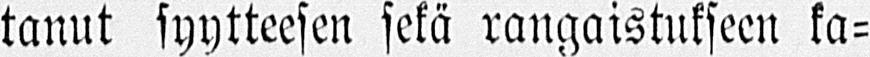tanut syytteesen sekä rangaistukseen ka-
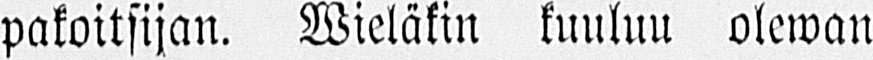pakoitsijan. Weläkin kuuluu olewan
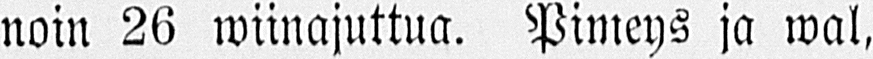noin 26 wiinajuttua. Pimeys ja wal,
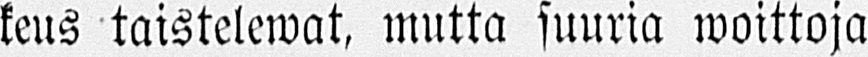keus taistelewat, mutta suuria woittoja
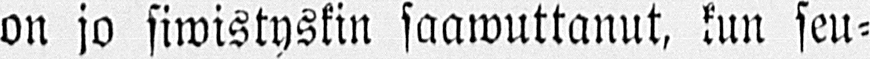on jo siwistyskin saawuttanut, kun seu-
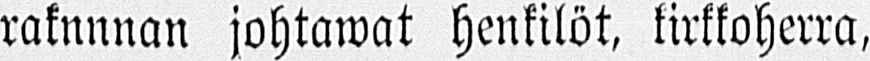rakunnan johtawat henkilöt, kirkkoherra,
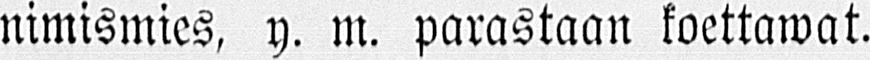nimismies, y. m. parastaan koettawat.
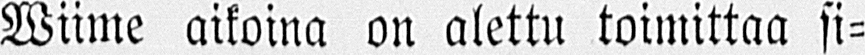Wiime aikoina on alettu toimittaa si-
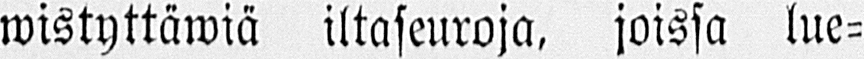wistyttäwiä iltaseuroja, joissa lue-
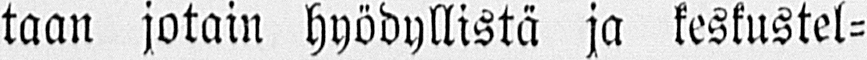taan jotain hyödyllistä ja keskustel-
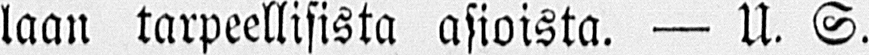laan tarpeellisista asioista. — U. S.
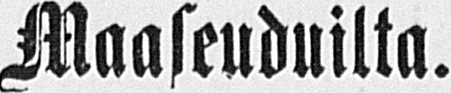Maaseuduilta.
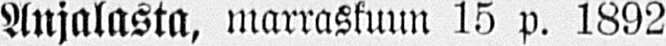Anjalasta, marraskuun 15 p. 1892.
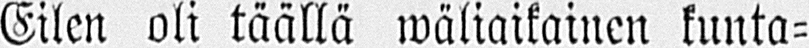Eilen oli täällä wäliaikainen kunta-
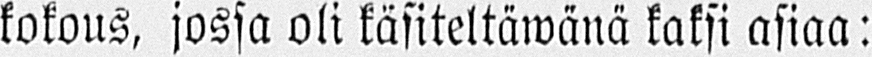kokous, jossa oli käsiteltäwänä kaksi asiaa:
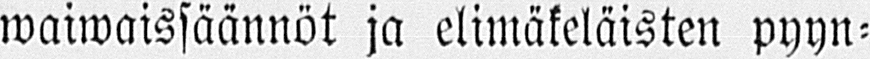waiwaissäännöt ja elimäkeläisten pyyn-
